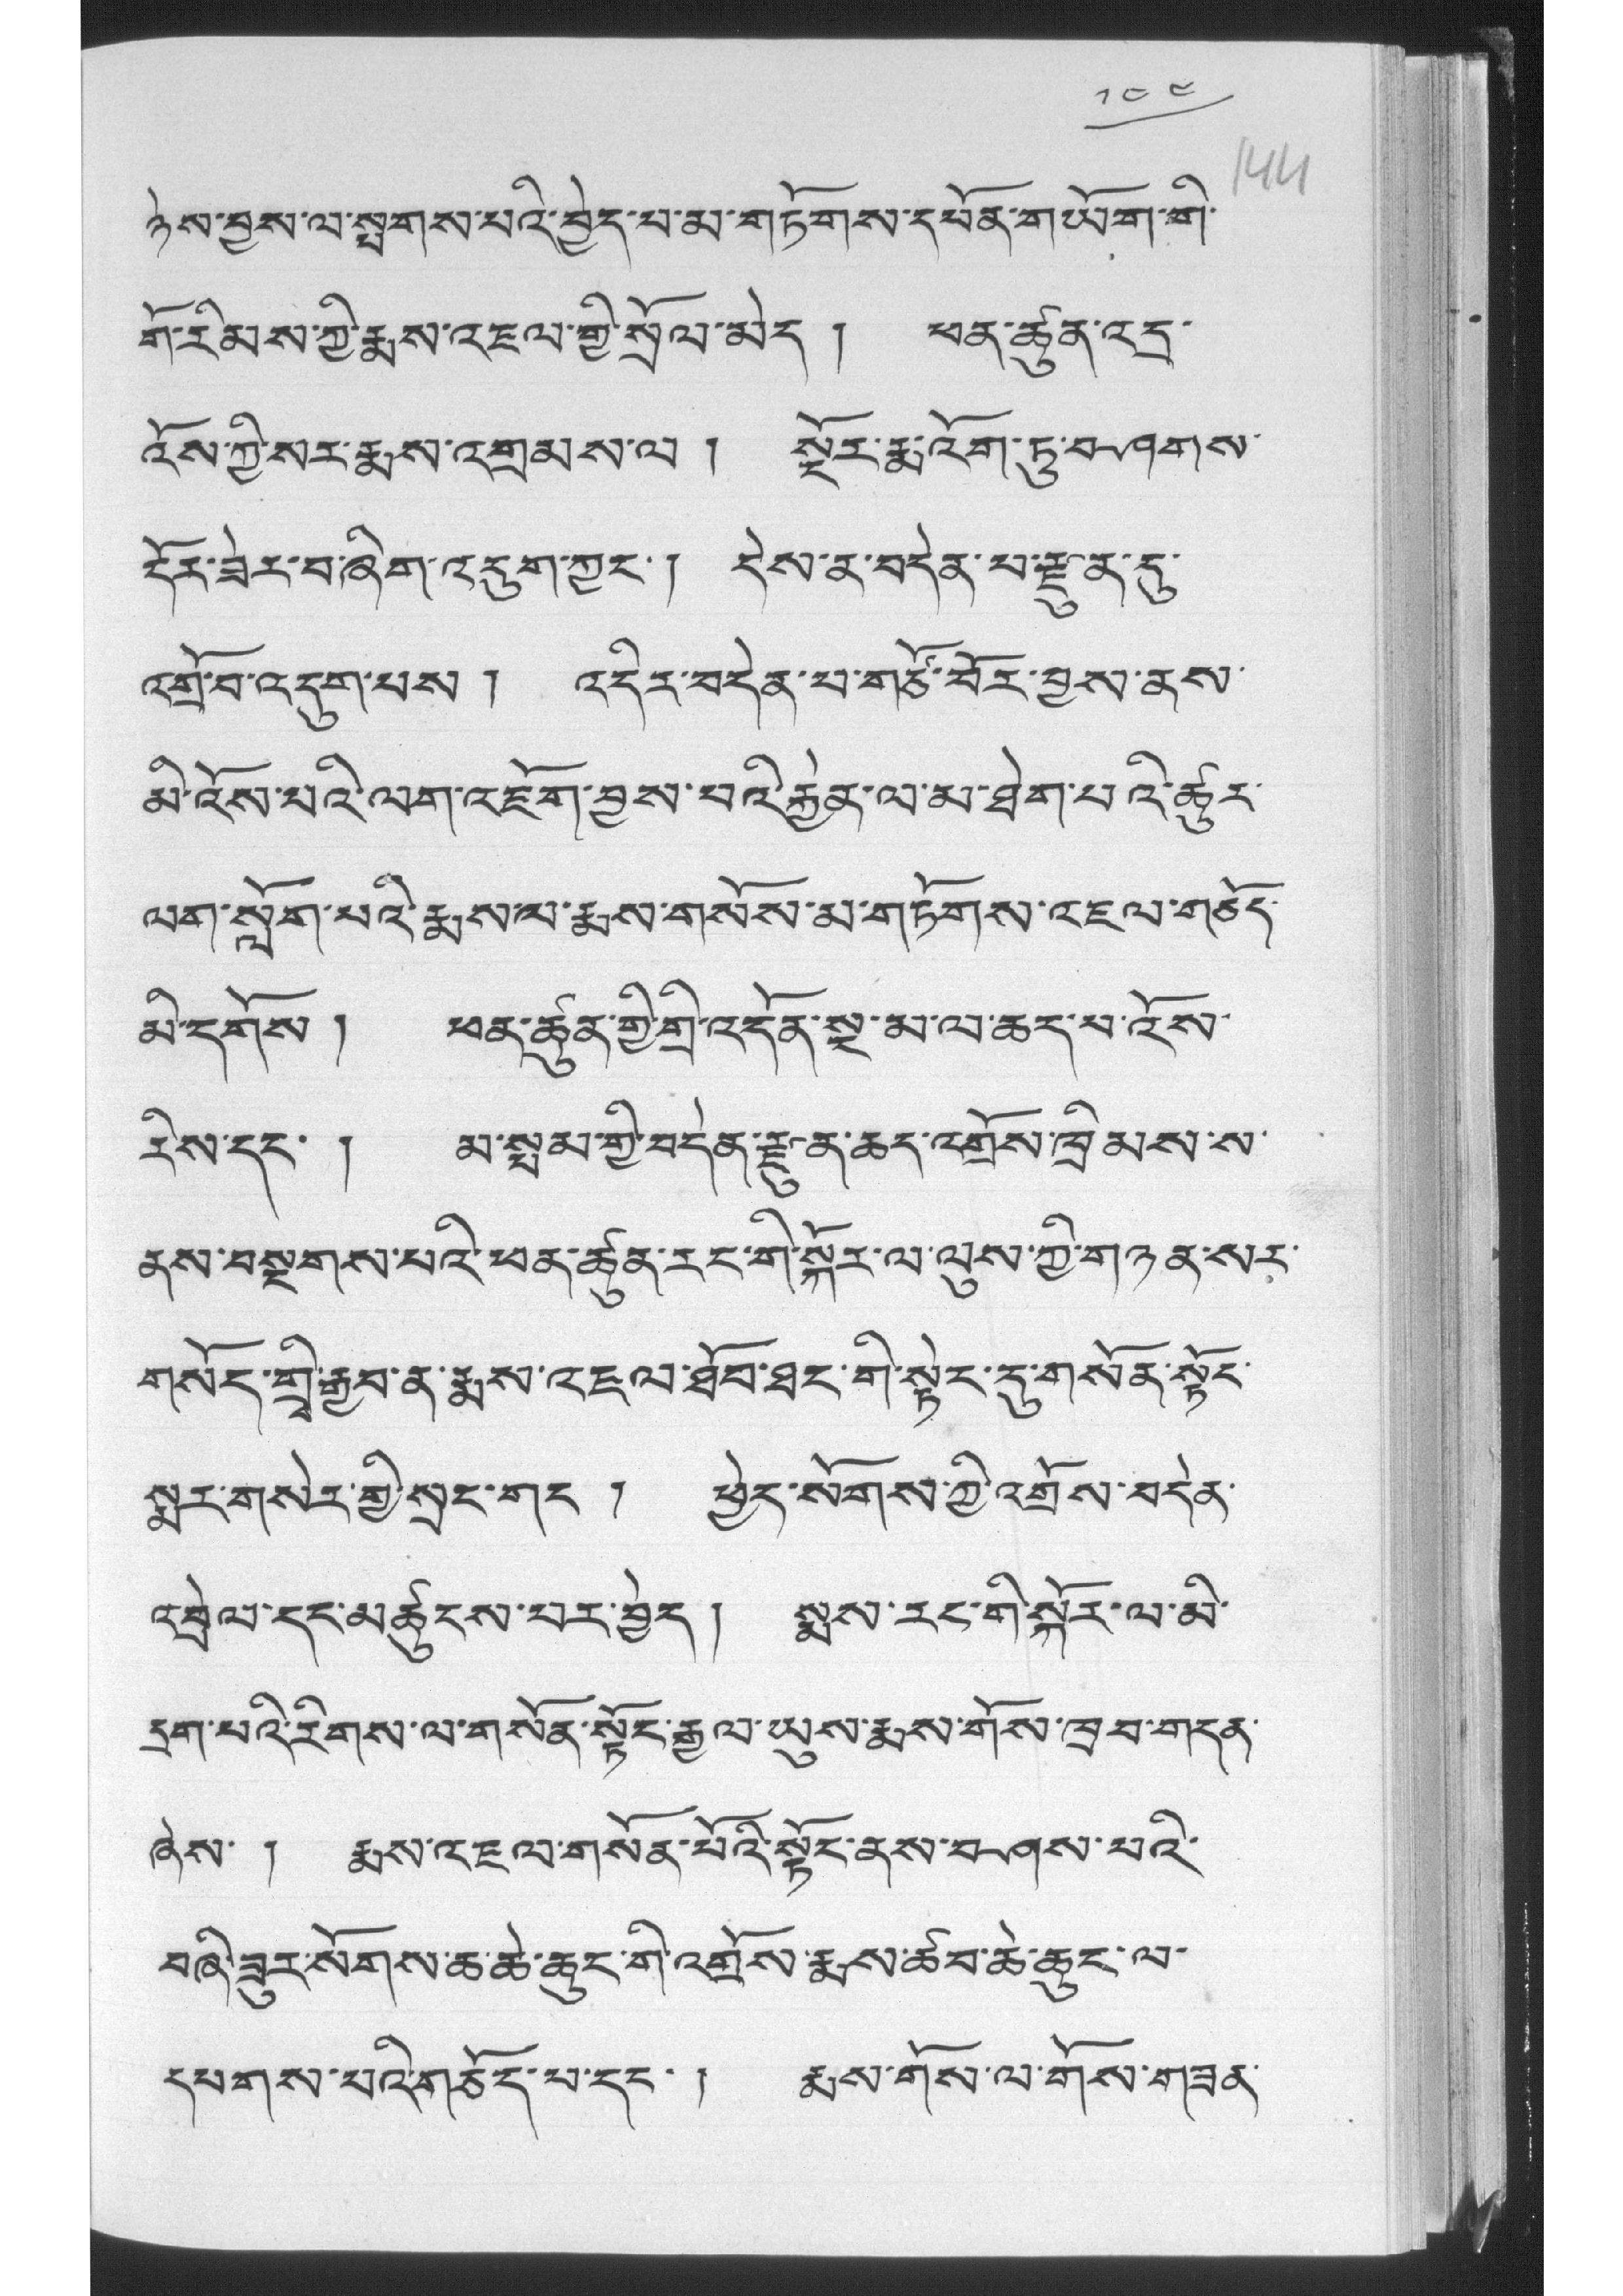༡༤༤
ཉེས་བྱས་ལ་སྤགས་པའི་བྱེད་པ་མ་གཏོགས་དཔོན་གཡོག་གི་
གོ་རིམས་ཀྱི་རྨས་འཇལ་གྱི་སྲོལ་མེད ། ཕན་ཚུན་འདྲ་
འོས་ཀྱི་སར་རྨས་འགྲམས་ལ ། སྔོར་རྨ་འོག་ཏུ་བཤགས་
དོར་ཟེར་བ་ཞིག་འདུག་ཀྱང་། དེས་ན་བདེན་པ་རྫུན་དུ་
འགྲོ་བ་འདུག་པས ། འདིར་བདེན་པ་གཙོ་བོར་བྱས་ནས་
མི་འོས་པའི་ལག་འཇོག་བྱས་པའི་རྐྱེན་ལ་མ་ཐེག་པའི་ཚུར་
ལག་སློག་པའི་རྨས་ལ་རྨས་གསོས་མ་གཏོགས་འཇལ་གཅོད་
མི་དགོས ། ཕན་ཚུན་གྱི་གྲི་འདོན་སྔ་མ་ལ་ཆད་པ་འོས་
རིས་དང་ ། མ་སྤམ་གྱི་བདེན་རྫུན་ཆད་འགྲོས་ཁྲིམས་ས་
ནས་བསྔགས་པའི་ཕན་ཚུན་རང་གི་སྐོར་ལ་ལུས་ཀྱི་གཉན་སར་
གསོད་གྲྭི་རྒྱབ་ན་རྨས་འཇལ་ཐོབ་ཐང་གི་སྟེང་དུ་གསོན་སྟོང་
སྨར་གསེར་གྱི་སྲང་གང ། ཕྱེད་སོགས་ཀྱི་འགྲོས་བདེན་
འབྲེལ་དང་མཚུངས་པར་བྱེད། སྨས་རང་གི་སྐོར་ལ་མི་
དྲུག་པའི་རིགས་ལ་གསོན་སྟོང་རྒྱལ་ཡུས་རྨས་གོས་ཁྲབ་གདན་
ཞེས་ ། རྨས་འཇལ་གསོན་པོའི་སྟོང་ནས་བཤས་པའི་
བཞི་ཟུར་སོགས་ཆ་ཆེ་ཆུང་གི་འགྲོས་རྨས་ཚབ་ཆེ་ཆུང་ལ་
དཔགས་པའི་གཅོད་པ་དང་། རྨས་གོས་ལ་གོས་གཟན་
